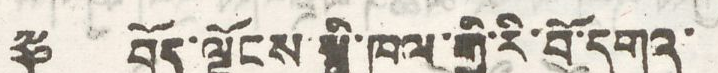༈ བོད་ལྗོངས་སྤྱི་ཁུལ་གྱི་རི་བོ་དགའ་
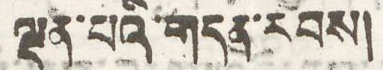ལྡན་པའི་གདན་རབས།
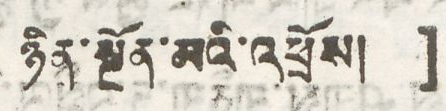ཉིན་སྔོན་མའི་འཕྲོས། ]
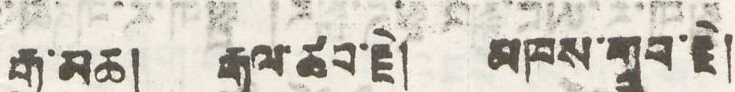རྒྱ་མཆ། རྒྱལ་ཚབ་རྗེ། མཁས་གྲུབ་རྗེ།
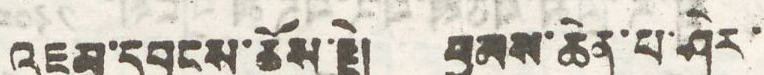འཇམ་དབྱངས་ཆོས་རྗེ། བྱམས་ཆེན་པ་ཤེར་
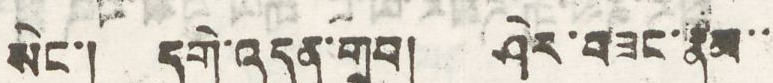སེང་། དགེ་འདུན་གྲུབ། ཤེར་བཟང་རྣམ་་
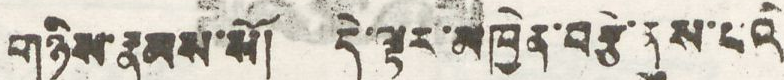གཉིས་རྣམས་སོ། དེ་ལྟར་མཁྱེན་བརྩེ་ནུས་པའི
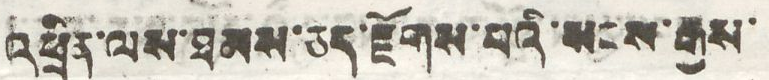འཕྲིན་ལས་ཐབས་ཅད་རྫོགས་པའི་སངས་རྒྱས་
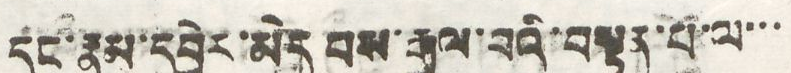དང་རྣམ་དབྱེར་མེད པས་རྒྱལ་བའི་བསྟན་པ་ལ་་་
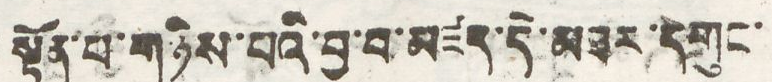སྟོན་པ་གཉིས་པའི་བྱ་བ་མཛད་དེ་མཐར་དགུང་
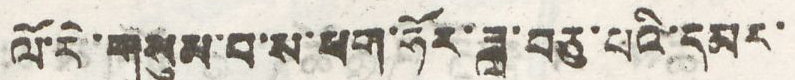ལོ་རེ་གསུམ་པ་ས་ཕག་ཧོར་ཟླ་བཅུ་པའི་དམར་
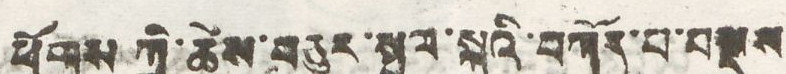ཕྱོགས ཀྱི་ཚེས་བཅུར་སྤྲུལ་སྐུའི་བཀོད་པ་བསྡུས
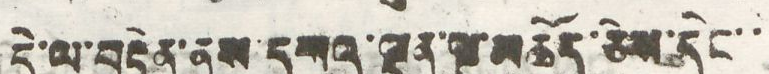དེ་ལ་བརྟེན་ནས་དགའ་ལྡན་ལྔ་མཆོད་ཅེས་དེང་་
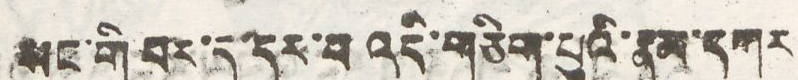སང་གི་བར་དུ་དར་བ འདི་གཅིག་པུའི་རྣམ་དཀར
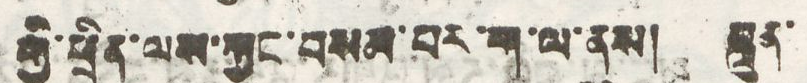གྱི་ཕྲིན་ལས་ཀྱང་བསམ་པར་ག་ལ་ནུས། བླུན་
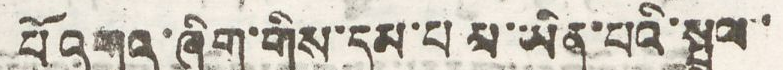པོ འགའ་ཞིག་གིས་དམ་པ མ་ཡིན་པའི་སྤྲུལ་
